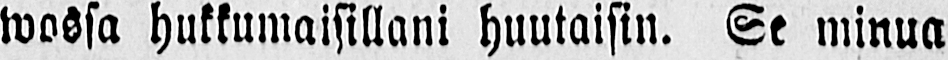wossa hukkumaisillani huutaisin. Se minua
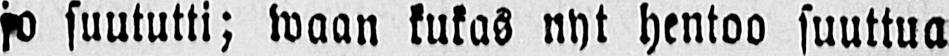jo suututti; waan kukas nyt hentoo suuttua
